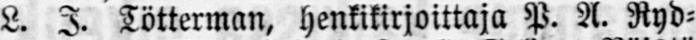L. J. Tötterman, henkikirjoittaja P. A. Ryd-
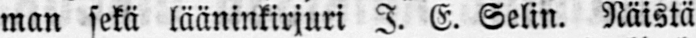man sekä lääninkirjuri J. E. Selin. Näistä
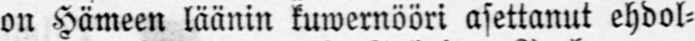on Hämeen läänin kuwernööri asettanut ehdol-
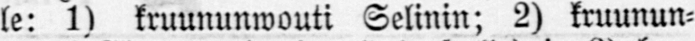le: 1) kruununwouti Selinin; 2) kruunun-
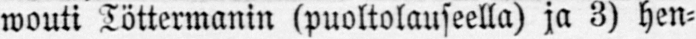wouti Töttermanin (puoltolauseella) ja 3) hen-
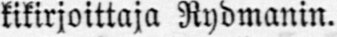kikirjoittaja Rydmanin.
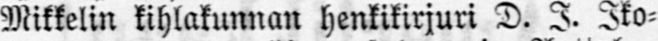Mikkelin kihlakunnan henkikirjuri D. I. Iko-
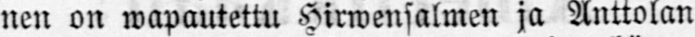nen on wapautettu Hirwensalmen ja Anttolan
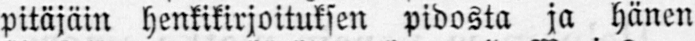pitäjäin henkikirjoituksen pidosta ja hänen
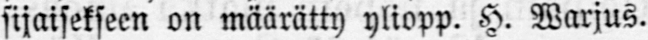sijaisekseen on määrätty yliopp. H. Warjus.
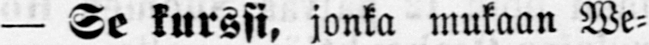— Se kurssi, jonka mukaan We-
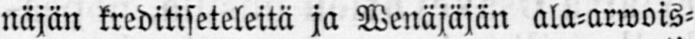näjän kreditiseteleitä ja wenäjäjän ala-arwois-
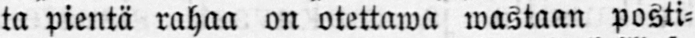ta pientä rahaa on otettawa wastaan posti-
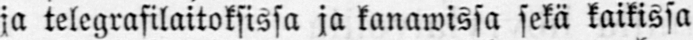ja telegrafilaitoksissa ja kanawissa sekä kaikissa
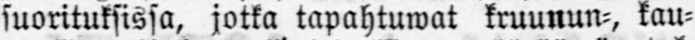suorituksissa, jotka tapahtuwat kruunun-, kau-
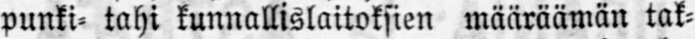punki- tahi kunnallislaitoksien määräämän tak-
